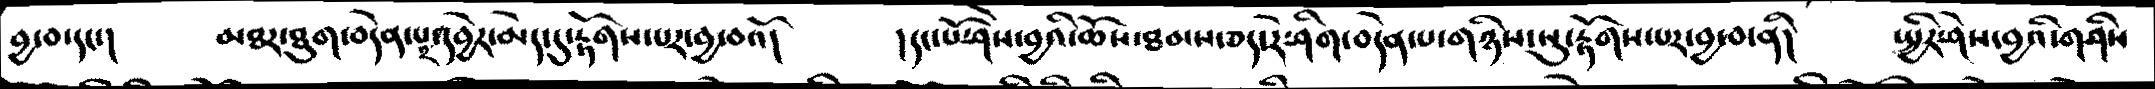བྱ་བ་དང་།   མཐར་ཐུག་བདེན་པ་༢་དབྱེར་མེད་དུ་རྟོགས་པར་བྱ་བའོ།   །དང་པོ་ཤེས་བྱའི་ཆོས་ཐམས་ཅད་རེ་ཤིག་བདེན་པ་གཉིས་སུ་རྟོགས་པར་བྱ་བ་ནི།   སྤྱིར་ཤེས་བྱའི་གཤིས
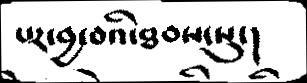པར་བྱ་བའི་ཐབས་སུ་།
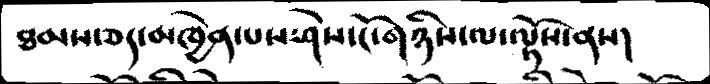ཐམས་ཅད་མཁྱེན་པས་ཤེས་ངོ་གཉིས་ལ་ལྟོས་ནས།
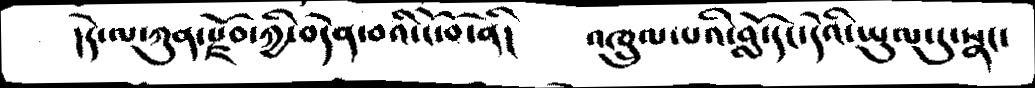།དེ་ལ་ཀུན་རྫོབ་ཀྱི་བདེན་བའི་ངོ་བོ་ནི།     འཁྲུལ་པའི་བློ་དང་དེའི་ཡུལ་དུ་སྣང་
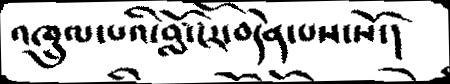འཁྲུལ་པའི་བློ་ངོར་བདེན་པས་སོ་།
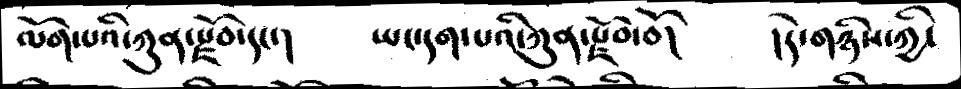ལོག་པའི་ཀུན་རྫོབ་དང་།   ཡང་དག་པའི་ཀུན་རྫོབ་བོ།   །དེ་གཉིས་ཀྱི་
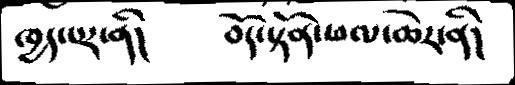ཁྱད་པར་ནི།     བོད་སྟོན་ཕལ་ཆེར་ནི།
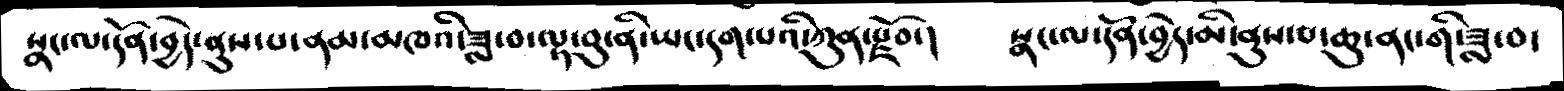སྣང་ལ་དོན་བྱེད་ནུས་པ་ནམ་མཁའི་ཟླ་བ་ལྟ་བུ་ནི་ཡང་དག་པའི་ཀུན་རྫོབ་།   སྣང་ལ་དོན་བྱེད་མི་ནུས་པ་ཆུ་ནང་གི་ཟླ་བ་
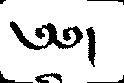༄༅།
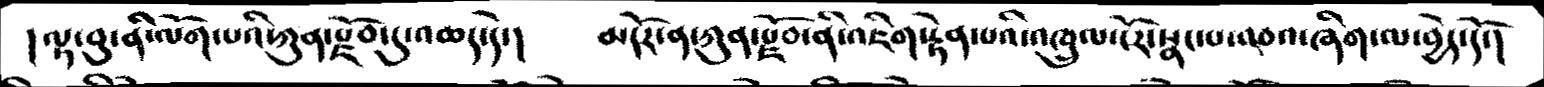།ལྟ་བུ་ནི་ལོག་པའི་ཀུན་རྫོབ་དུ་འཆད་དེ་།   མདོར་ན་ཀུན་རྫོབ་ནི་འཇིག་རྟེན་པའི་འཁྲུལ་ངོར་སྣང་པ་འབའ་ཞིག་ལ་བྱེད་དོ་།
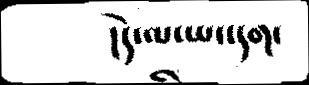།དེ་ལ་ཡང་དག་
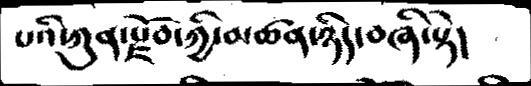པའི་ཀུན་རྫོབ་ཀྱི་མཚན་ཉིད་བཞི་སྟེ།
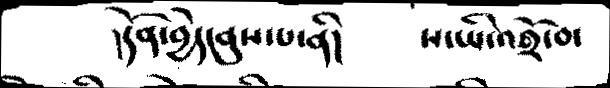།དོན་བྱེད་ནུས་པ་ནི།   ས་ཡི་འགྲོ་བ་
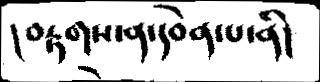།བརྟགས་ན་དབེན་པ་ནི།
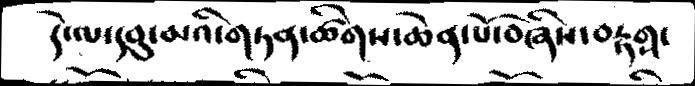དེ་ལ་དབུ་མའི་གཏན་ཚིགས་ཆེན་པོ་བཞིས་བརྟགས་
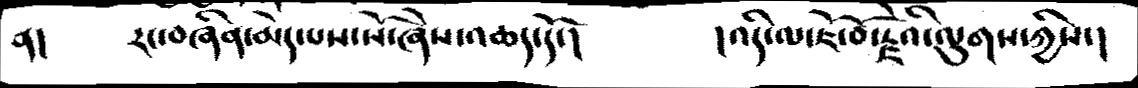ན།   རང་བཞིན་མེད་པས་སོ་ཞེས་འཆད་དོ་།   །འདི་ལ་ཇོ་བོ་རྗེའི་ལུགས་ཀྱིས་།
